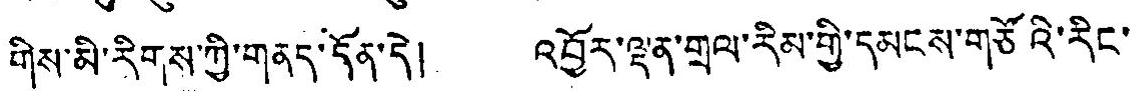གིས་མི་རིགས་ཀྱི་གནད་དོན་དེ། འབྱོར་ལྡན་གྲལ་རིམ་གྱི་དམངས་གཙོའི་རིང་
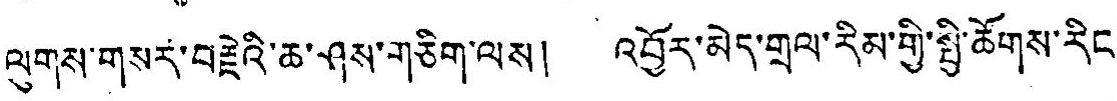ལུགས་གསར་བརྗེའི་ཆ་ཤས་གཅིག་ལས། འབྱོར་མེད་གྲལ་རིམ་གྱི་སྤྱི་ཚོགས་རིང་
